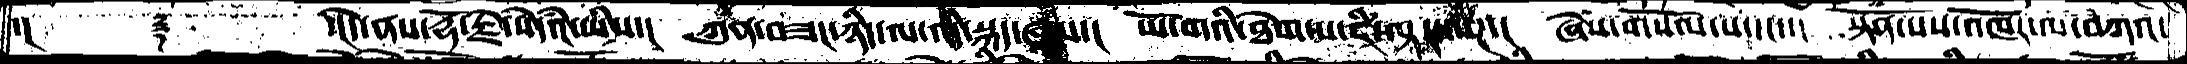་།     ༈     ་།དེ་ནས་རྡོ་རྗེ་སེདཾའ་ཡིས་།  ཀུན་བཟང་ཉིད་ལ་འདི་སྐད་ཞུས་།  ཡོ་གའི་ཐེག་པ་ཇི་ལྟར་ལཌ་།  ཞེས་གསོལ་པ་དང་་།  སྟོན་པས་འཁོར་ལ་བཀའ་
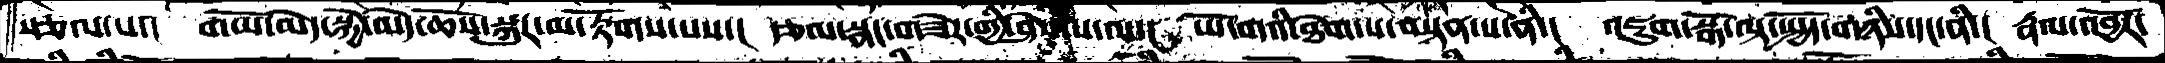སྩལ་པ་།  གཡོ་མེད་སྐྱེ་མེད་ཆོས་སྐུར་མ་རྟོགས་པས་།  རྩལ་སྣང་གཟེར་གྱི་ཤེས་པ་ལ་།  ཡོ་གའི་ཐེག་པ་བསྟན་པ་ནི་།  འཇུག་སྒོ་ལྟ་སྤྱོད་གཉིས་དང་ནི་།  རྣལ་འབྱོར་
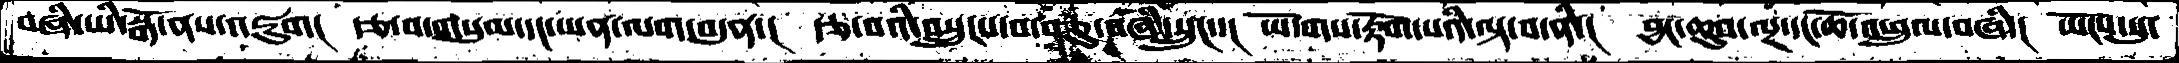བཞི་ཡི་སྒོ་ནས་འཇུག།  རྩ་བ་གསུམ་དང་ཡན་ལག་བདུན་།  རྩ་བའི་བསྲུངས་བ་བཅུ་བཞི་སྲུང་་།  ཡོ་གས་རྟོག་པའི་ལྟ་བ་ནི་།  བྱང་ཆུབ་ལྔ་དང་ཆོ་འཕྲུལ་བཞི་།  ཡོངས་སུ་
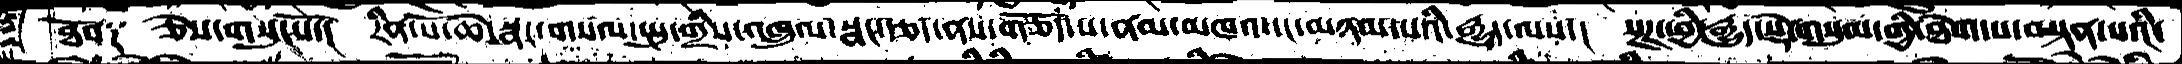ཐོབ༑  ཅེས་གསུངསོ་།  རིན་པོ་ཆེ་སྣང་གསལ་སྤུ་གྲིས་འཁྲུལ་སྣང་རྩད་ནས་གཅོད་པ་ནམ་མཁའ་དང་མཉམ་པའི་རྒྱུད་ལས་།  སྔཌ་ཕྱི་རྒྱུད་སྡེ་གསུམ་གྱི་ཐེག་པ་བསྟན་པའི་
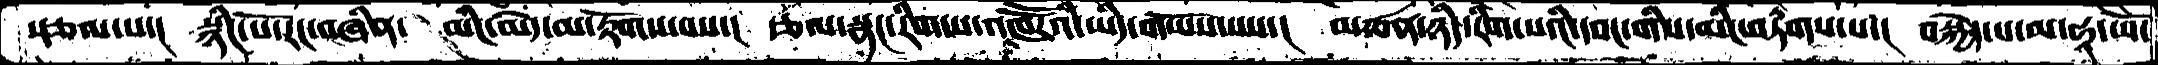སྩལ་པ་།  སྙིང་པོ་རང་བཞིན་  མིང་མེད་མ་རྟོགས་བས་།  རྩལ་སྣང་རིག་པ་འཁཽའི་ཡིད་གཡོས་པས་།  མཚན་ཉིད་རིག་པའི་དབང་གིས་མིང་བཏགས་པ་།  བསྐྱེད་པ་མ་ཧཱ་ཡོ་
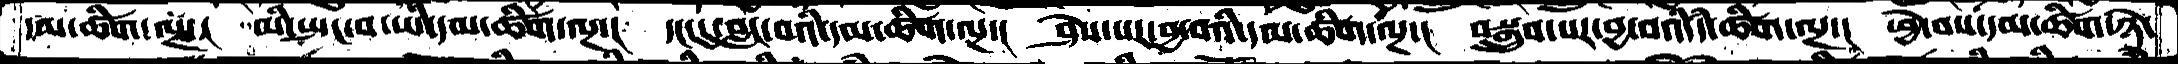དམ་ཚིག་ལྔ་།  མི་སྤང་བ་ཡི་དམ་ཚིག་ལྔ་།  དང་དུ་བླང་བའི་དམ་ཚིག་ལྔ་།  ཤེས་པར་བྱ་བའི་དམ་ཚིག་ལྔ་།  བསྒྲུབ་པར་བྱ་བའི་དཾ་ཚིག་ལྔ་།  ཕྱེ་བས་དམ་ཚིག་ཉེ་
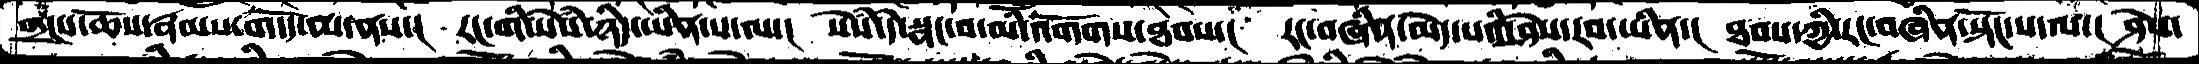གྲངས་ཆོས་རྣམས་གདོད་མ་ནས་།  རང་གི་སེཾས་ཉིད་ཡིན་པ་ལ་།  སེཾས་དེ་སྣང་བ་མི་འགོགས་ཐབས་།  རང་བཞིན་མེད་པའི་ཤེས་རབ་ཡིན་།  ཐབས་ཀྱི་རང་བཞིན་སྟོང་པ་ལ་།  ཤེས་
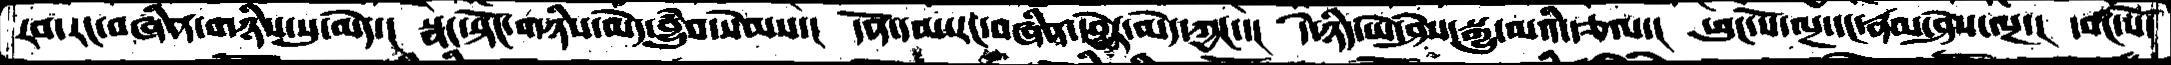རབ་རང་བཞིན་གཉིས་སུ་མེད་།  སྣང་སྟོང་གཉིས་མེད་བྱུཾབ་སེམས་།  དོན་དམ་རང་བཞིན་དབྱེར་མེད་ཀྱང་་།  དེ་ཉིད་ཡེ་ཤེས་སྒྱུ་མའི་རྩལ་།  ཕུང་པོ་ལྔ་དང་རྣམ་ཤེས་ལྔ་།  དབང་པོ་
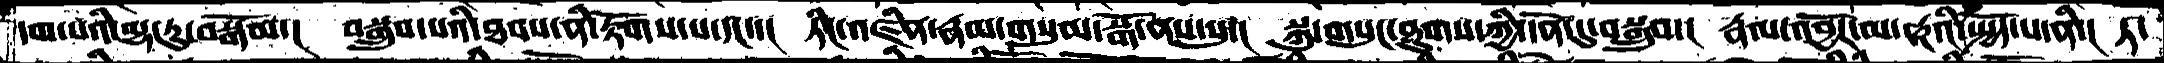དམ་པའི་ལྷ་རུ་བསྒོམ་།  བསྒྲུབ་པའི་ཐབས་ནི་རྟོགས་པ་དང་་།  ཏིང་འཛིན་རྣམ་གསུམ་སྒོ་ནས་སུ་།  སྐུ་གསུང་ཐུགས་ཀྱི་དོན་དུ་བསྒྲུབ་།  རྣལ་འབྱོར་མ་ཧཱའི་སྤྱོད་པ་ནི་།  ཏ་
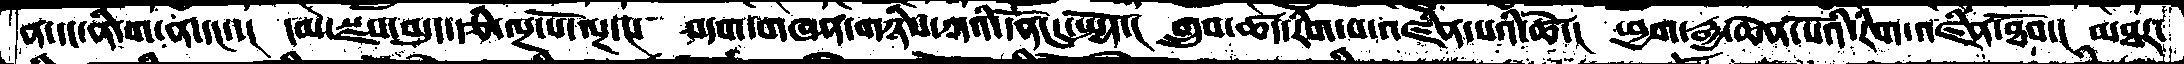ན་དང་ནི་ག་ན་དང་་།  དམ་སྫས་བདུད་རྩི་ལྔ་པོ་ལྔ་།  བདག་གཞན་གཉིས་ཀའི་དོན་དུ་སྤྱོད་།  གྲུབ་ཚད་རིག་པ་འཛིན་པའི་ཚེ་།   ཕྱག་རྒྱ་ཆེན་པོའི་རིག་འཛིན་ཐོབ་།  མཐར་
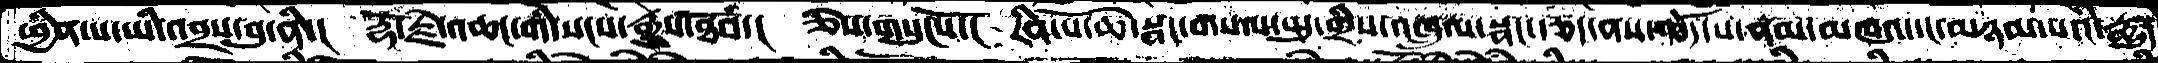ཕྱིན་པ་ཡི་འབྲས་བུ་ནི་།  རྡོ་རྗེ་འཆང་གི་སངས་རྒྱས་ཐོབ་།  ཅེས་གསུངསོ་།  རིན་པོ་ཆེ་སྣང་གསལ་སྤུ་གྲིས་འཁྲུལ་སྣང་རྩད་ནས་ཆོད་པ་ནམ་མཁའ་དང་མཉམ་པའི་རྒྱུད་
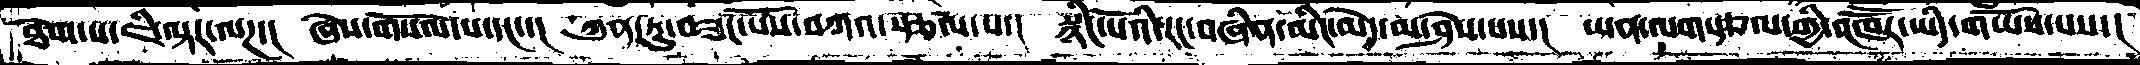ཐེག་པ་ཇི་ལྟར་ལཌ་།  ཞེས་གསོལ་པ་དང་།  ཀུན་ཏུ་བཟང་པོས་བཀའ་སྩལ་པ་།  སྙིང་པོའི་རང་བཞིན་མིང་མེད་མ་ཤེས་པས་།  ཡན་ལག་རྩལ་གྱི་འཁཽར་ཡིད་གཡོས་པས་།
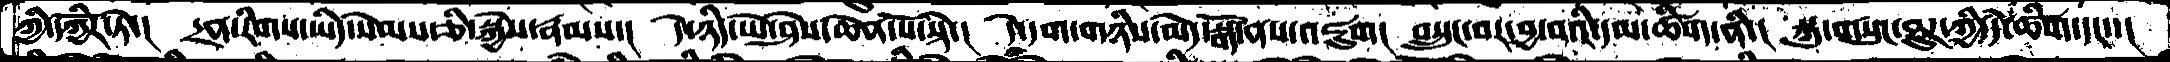ཀྱི་དཀྱོིར་ཏེ་།  དྲན་རིགས་ཡིད་སེམས་ཅི་སྐྱེས་རྣམས་།  དེ་ཉིད་ཡེ་ཤེས་ཆེན་པོ་སྟེ་།  དེ་དག་གཉིས་མེད་སྒོ་ནས་འཇུག།  བསྲུང་བར་བྱ་བའི་དམ་ཚིག་ནི་།  སྐུ་གསུང་ཐུཌ་ཀྱི་དཾ་ཚིག་དང་་།
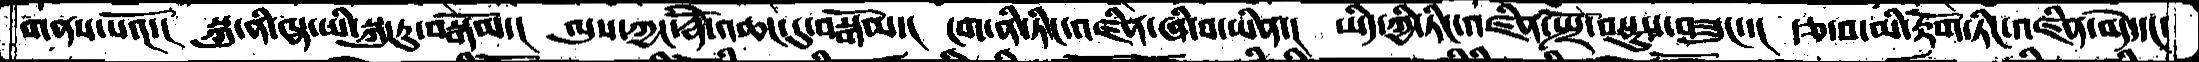གནས་པའོ་།   སྐུ་ནི་ལྷ་ཡི་སྐུ་རུ་བསྒོམ་།  ལུས་ཀྱང་རྡོེ་འཆང་དུ་བསྒོམ་།  ངག་ནི་ཏིང་འཛིན་ཞི་བ་ཡིན་།  ཡིད་ཀྱི་ཏིང་འཛིན་སྤྲོ་བསྡུས་བཟུང་་།  རྩ་བ་མི་རྟོག་ཏིང་འཛིན་བདེ་དང་
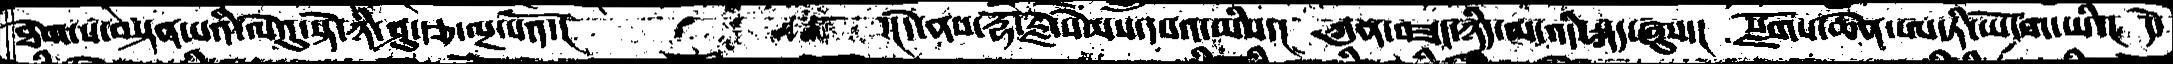ཐེག་པ་བསྟན་པའི་ལེའུ་སྟེ་ཉི་ཤུ་རྩ་ལྔ་པའོ་།  ་།དེ་ནས་རྡོ་རྗེ་སེམས་དཔའ་ཡིས་།  ཀུན་བཟང་ཉིད་ལ་འདི་སྐད་ཞུས་།  སྫོགས་ཆེན་ཨ་ཏི་ཡོ་ག་ཡི་། དེ་
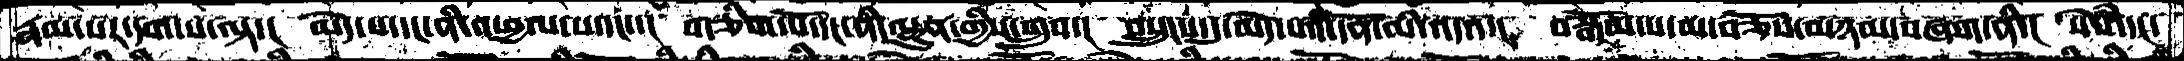རྣམ་པར་དག་པ་ལྟ་།  མེད་པ་དང་ནི་འཕྱལ་པ་དང་་།  གཅིག་པོ་དང་ནི་ལྷུན་གྱིས་གྲུབ་།  བསྲུངས་དུ་མེད་པའི་དོན་མི་འདའ་།  བསྒོམ་པ་མ་བཅོས་མཉམ་བཞག་ནི་།  སེཾས་དང་
